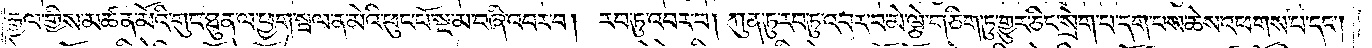རྒྱལ་གྱིས་མཚན་མོའི་གུང་ཐུན་ལ་ཕྱག་སྦལ་ན་མེའི་ཕུང་པོ་སྔ་མ་བཞི་འབར་བ། རབ་ཏུ་འབར་བ། ཀུན་ཏུ་རབ་ཏུ་འབར་བ་མེ་ལྕེ་གཅིག་ཏུ་གྱུར་ཅིང་སྲེག་པ་དག་པས་ཆེས་འཕགས་པ་དང༌།
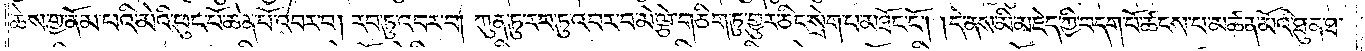ཆེས་གྱ་ནོམ་པའི་མེའི་ཕུང་པོ་ཆེན་པོ་འབར་བ། རབ་ཏུ་འབར་བ། ཀུན་ཏུ་རབ་ཏུ་འབར་བ་མེ་ལྕེ་གཅིག་ཏུ་གྱུར་ཅིང་སྲེག་པ་མཐོང་ངོ༌། །དེ་ནས་མི་མཇེད་ཀྱི་བདག་པོ་ཚངས་པ་མཚན་མོའི་ཐུན་ཐ་
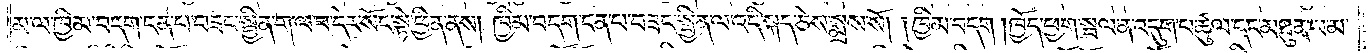མ་ལ་ཁྱིམ་བདག་ངན་པ་བཟང་སྦྱིན་ག་ལ་བ་དེར་སོང་སྟེ་ཕྱིན་ནས། ཁྱིམ་བདག་ངན་པ་བཟང་སྦྱིན་ལ་འདི་སྐད་ཅེས་སྨྲས་སོ། །ཁྱིམ་བདག །ཁྱོད་ཕྱག་སྦལ་ན་འདུག་པ་ཚུལ་དང་མཐུན་པ་མ་
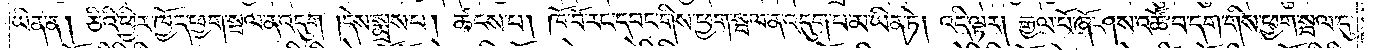ཡིན་ན། ཅིའི་ཕྱིར་ཁྱོད་ཕྱག་སྦལ་ན་འདུག །དེས་སྨྲས་པ། ཚངས་པ། ཁོ་བོ་རང་དབང་གིས་ཕྱག་སྦལ་ན་འདུག་པ་མ་ཡིན་ཏེ། འདི་ལྟར། རྒྱལ་པོ་ཞོ་ཤས་འཚོ་བ་དག་གིས་ཕྱག་སྦལ་དུ་
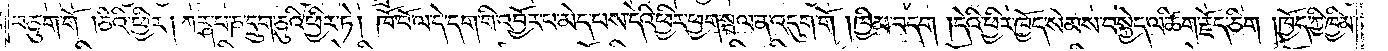བཅུག་གོ །ཅིའི་ཕྱིར། ཀཪྴ་པ་ཎ་དྲུག་ཅུའི་ཕྱིར་ཏེ། ཁོ་བོ་ལ་དེ་དག་གི་འབྱོར་པ་མེད་པས་དེའི་ཕྱིར་ཕྱག་སྦལ་ན་འདུག་གོ །ཁྱིམ་བདག །དེའི་ཕྱིར་ཁྱོད་སེམས་བསྐྱེད་ལ་ཚིག་རྗོད་ཅིག །ཁྱོད་ཀྱི་ཁྱིམ་
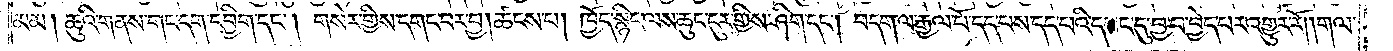མམ། ཆུའི་གནས་གང་དག་དབྱིག་དང༌། གསེར་གྱིས་དགང་བར་བྱ། ཚངས་པ། ཁྱོད་སྙིང་ལས་ཆུང་ངུར་གྱིས་ཤིག་དང༌། བདག་ལ་རྒྱལ་པོ་དད་པས་དད་པའི་དབང་དུ་བྱ་བ་བྱེད་པར་འགྱུར་རོ། །གལ་
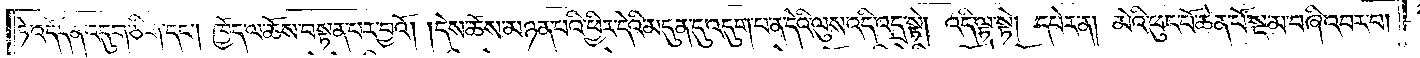ཏེ་འདོད་ན་འདུག་ཅིག་དང༌། ཁྱོད་ལ་ཆོས་བསྟན་པར་བྱའོ། །དེས་ཆོས་མཉན་པའི་ཕྱིར་དེའི་མདུན་དུ་འདུག་པ་ན་དེའི་ལུས་འདི་འདྲ་སྟེ། འདི་ལྟ་སྟེ། དཔེར་ན། མེའི་ཕུང་པོ་ཆེན་པོ་སྔ་མ་བཞི་འབར་བ།
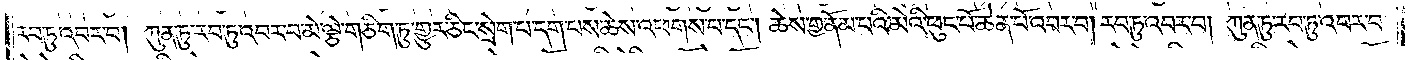རབ་ཏུ་འབར་བ། ཀུན་ཏུ་རབ་ཏུ་འབར་བ་མེ་ལྕེ་གཅིག་ཏུ་གྱུར་ཅིང་སྲེག་པ་དག་པས་ཆེས་འཕགས་པ་དང༌། ཆེས་གྱ་ནོམ་པའི་མེའི་ཕུང་པོ་ཆེན་པོ་འབར་བ། རབ་ཏུ་འབར་བ། ཀུན་ཏུ་རབ་ཏུ་འབར་བ་
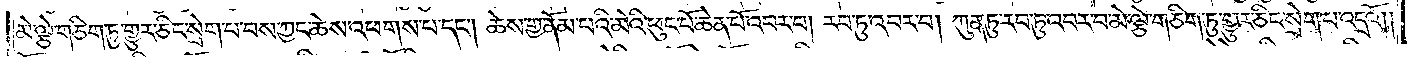མེ་ལྕེ་གཅིག་ཏུ་གྱུར་ཅིང་སྲེག་པ་བས་ཀྱང་ཆེས་འཕགས་པ་དང༌། ཆེས་གྱ་ནོམ་པའི་མེའི་ཕུང་པོ་ཆེན་པོ་འབར་བ། རབ་ཏུ་འབར་བ། ཀུན་ཏུ་རབ་ཏུ་འབར་བ་མེ་ལྕེ་གཅིག་ཏུ་གྱུར་ཅིང་སྲེག་པ་འདྲའོ༎
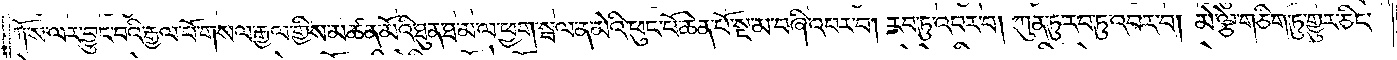ཀོ་ས་ལར་བྱུང་བའི་རྒྱལ་པོ་གསལ་རྒྱལ་གྱིས་མཚན་མོའི་ཐུན་ཐ་མ་ལ་ཕྱག་སྦལ་ན་མེའི་ཕུང་པོ་ཆེན་པོ་སྔ་མ་བཞི་འབར་བ། རབ་ཏུ་འབར་བ། ཀུན་ཏུ་རབ་ཏུ་འབར་བ། མེ་ལྕེ་གཅིག་ཏུ་གྱུར་ཅིང་
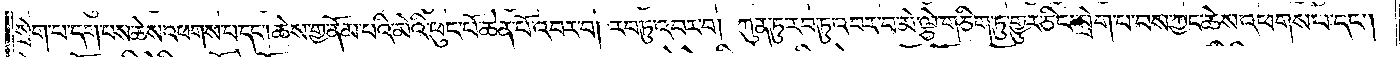སྲེག་པ་དག་པས་ཆེས་འཕགས་པ་དང༌། ཆེས་གྱ་ནོམ་པའི་མེའི་ཕུང་པོ་ཆེན་པོ་འབར་བ། རབ་ཏུ་འབར་བ། ཀུན་ཏུ་རབ་ཏུ་འབར་བ་མེ་ལྕེ་གཅིག་ཏུ་གྱུར་ཅིང་སྲེག་པ་བས་ཀྱང་ཆེས་འཕགས་པ་དང༌།
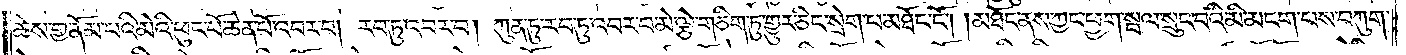ཆེས་གྱ་ནོམ་པའི་མེའི་ཕུང་པོ་ཆེན་པོ་འབར་བ། རབ་ཏུ་འབར་བ། ཀུན་ཏུ་རབ་ཏུ་འབར་བ་མེ་ལྕེ་གཅིག་ཏུ་གྱུར་ཅིང་སྲེག་པ་མཐོང་ངོ༌། །མཐོང་ནས་ཀྱང་ཕྱག་སྦལ་སྲུང་བའི་མི་མངག་པས་བཀུག་
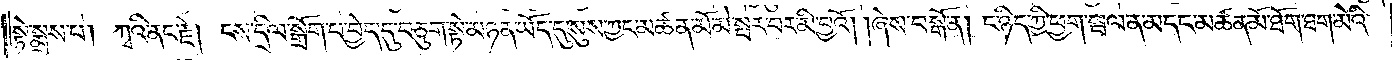སྟེ་སྨྲས་པ། ཀྭའི་ནང་རྗེ། དས་དྲིལ་སྒྲོག་པ་བྱེད་དུ་བཅུག་སྟེ་མཉན་ཡོད་དུ་སུས་ཀྱང་མཚན་མོ་མེ་སྦར་བར་མི་བྱའོ། །ཞེས་བསྒོ་ན། ང་ཉིད་ཀྱི་ཕྱག་སྦལ་ན་མདང་མཚན་མོ་ཐོ་ཐག་མེའི་
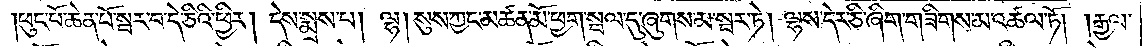ཕུང་པོ་ཆེན་པོ་སྦར་བ་དེ་ཅིའི་ཕྱིར། དེས་སྨྲས་པ། ལྷ། སུས་ཀྱང་མཚན་མོ་ཕྱག་སྦལ་དུ་ཞུགས་མ་སྦར་ཏེ། ལྷས་དེར་ཅི་ཞིག་གཟིགས་མ་འཚལ་ཏོ། །རྒྱལ་
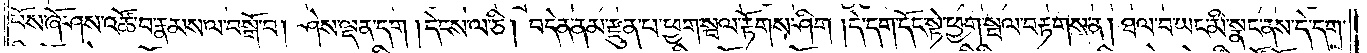པོས་ཞོ་ཤས་འཚོ་བ་རྣམས་ལ་བསྒོ་བ། ཤེས་ལྡན་དག །དེངས་ལ་ཅི། བདེན་ནམ་རྫུན་པ་ཕྱག་སྦལ་རྟོགས་ཤིག །དེ་དག་དོང་སྟེ་ཕྱག་སྦལ་བརྟགས་ན། ཐལ་བ་ཡང་མི་སྣང་ནས་དེ་དག་
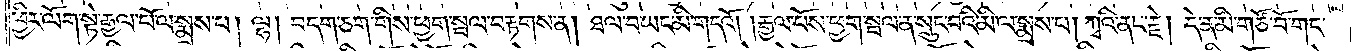ཕྱིར་ལོག་སྟེ་རྒྱལ་པོ་ལ་སྨྲས་པ། ལྷ། བདག་ཅག་གིས་ཕྱག་སྦལ་བརྟགས་ན། ཐལ་བ་ཡང་མི་གདའོ། །རྒྱལ་པོས་ཕྱག་སྦལ་ན་སྲུང་བའི་མི་ལ་སྨྲས་པ། ཀྭའི་ནང་རྗེ། དེ་ན་མི་གཙོ་བོ་གང་
